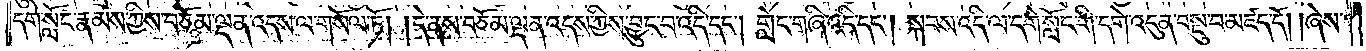དགེ་སློང་རྣམས་ཀྱིས་བཅོམ་ལྡན་འདས་ལ་གསོལ་ཏོ། །དེ་ནས་བཅོམ་ལྡན་འདས་ཀྱིས་བྱུང་བ་འདི་དང༌། གླེང་གཞི་འདི་དང༌། སྐབས་འདི་ལ་དགེ་སློང་གི་དགེ་འདུན་བསྡུ་བ་མཛད་དོ། །ཞེས་
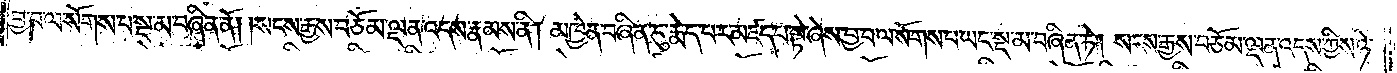བྱ་བ་ལ་སོགས་པ་སྔ་མ་བཞིན་ནོ། །སངས་རྒྱས་བཅོམ་ལྡན་འདས་རྣམས་ནི། མཁྱེན་བཞིན་དུ་རྨེད་པར་མཛད་པ་སྟེ་ཞེས་བྱ་བ་ལ་སོགས་པ་ཡང་སྔ་མ་བཞིན་ཏེ། སངས་རྒྱས་བཅོམ་ལྡན་འདས་ཀྱིས་ཉེ་
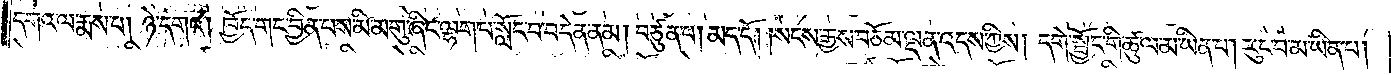དགའ་ལ་རྨས་པ། ཉེ་དགའ། ཁྱོད་གང་བྱིན་པས་མི་མགུ་ཞིང་ལྷག་པ་སློང་བ་བདེན་ནམ། བཙུན་པ། མད་དོ། །སངས་རྒྱས་བཅོམ་ལྡན་འདས་ཀྱིས། དགེ་སྦྱོང་གི་ཚུལ་མ་ཡིན་པ། རུང་བ་མ་ཡིན་པ།
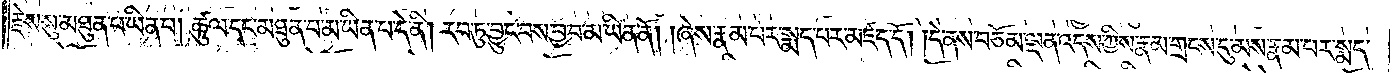རྗེས་སུ་མཐུན་པ་ཡིན་པ། ཚུལ་དང་མཐུན་པ་མ་ཡིན་པ་དེ་ནི། རབ་ཏུ་བྱུང་བས་བྱ་བ་མ་ཡིན་ནོ། །ཞེས་རྣམ་པར་སྨད་པར་མཛད་དོ། །དེ་ནས་བཅོམ་ལྡན་འདས་ཀྱིས་རྣམ་གྲངས་དུ་མས་རྣམ་པར་སྨད་
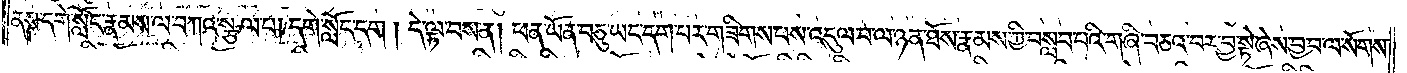ནས་དགེ་སློང་རྣམས་ལ་བཀའ་སྩལ་པ། དགེ་སློང་དག ། དེ་ལྟ་བས་ན། ཕན་ཡོན་བཅུ་ཡང་དག་པར་གཟིགས་པས་འདུལ་བ་ལ་ཉན་ཐོས་རྣམས་ཀྱི་བསླབ་པའི་གཞི་བཅའ་བར་བྱ་སྟེ་ཞེས་བྱ་བ་ལ་སོགས་
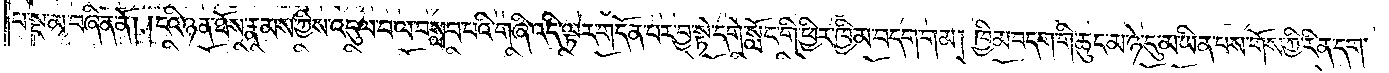པ་སྔ་མ་བཞིན་ནོ། །ངའི་ཉན་ཐོས་རྣམས་ཀྱིས་འདུལ་བ་ལ་བསླབ་པའི་གཞི་འདི་ལྟར་གདོན་པར་བྱ་སྟེ་དགེ་སློང་གི་ཕྱིར་ཁྱིམ་བདག་གམ། ཁྱིམ་བདག་གི་ཆུང་མ་ཉེ་དུ་མ་ཡིན་པས་གོས་ཀྱི་རིན་དག་
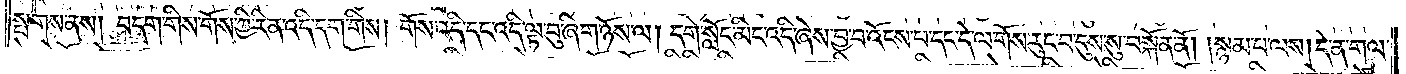སྤགས་ནས། བདག་གིས་གོས་ཀྱི་རིན་འདི་དག་གིས། གོས་འདི་དང་འདི་ལྟ་བུ་ཞིག་ཉོས་ལ། དགེ་སློང་མིང་འདི་ཞེས་བྱ་བ་འོངས་པ་དང་དེ་ལ་གོས་རུང་བ་དུས་སུ་བསྐོན་ནོ། །སྙམ་པ་ལས། དེ་ན་གལ་
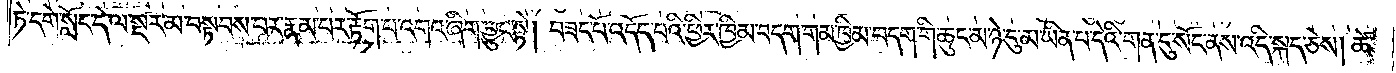ཏེ་དགེ་སློང་དེ་ལ་སྔར་མ་བསྟབས་བར་རྣམ་པར་རྟོག་པ་འགའ་ཞིག་བྱུང་སྟེ། བཟང་པོ་འདོད་པའི་ཕྱིར་ཁྱིམ་བདག་གམ་ཁྱིམ་བདག་གི་ཆུང་མ་ཉེ་དུ་མ་ཡིན་པ་དེའི་གན་དུ་སོང་ནས་འདི་སྐད་ཅེས། ཚེ་
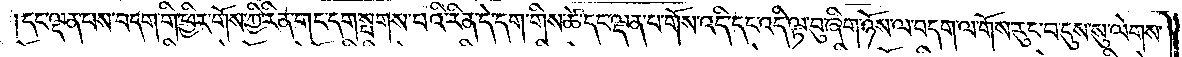དང་ལྡན་པས་བདག་གི་ཕྱིར་གོས་ཀྱི་རིན་གང་དག་སྤགས་པའི་རིན་དེ་དག་གིས་ཚེ་དང་ལྡན་པ་གོས་འདི་དང་འདི་ལྟ་བུ་ཞིག་ཉོས་ལ་བདག་ལ་གོས་རུང་བ་དུས་སུ་ལེགས་
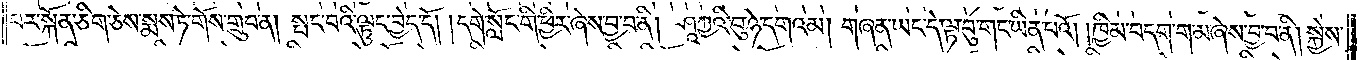པར་སྐོན་ཅིག་ཅེས་སྨས་ཏེ་གོས་གྲུབ་ན། སྤང་བའི་ལྟུང་བྱེད་དོ། །དགེ་སློང་གི་ཕྱིར་ཞེས་བྱ་བ་ནི། ཤཱཀྱའི་བུ་ཉེ་དགའམ། གཞན་ཡང་དེ་ལྟ་བུ་གང་ཡིན་པའོ། །ཁྱིམ་བདག་ག་མ་ཞེས་བྱ་བ་ནི། སྐྱེས་
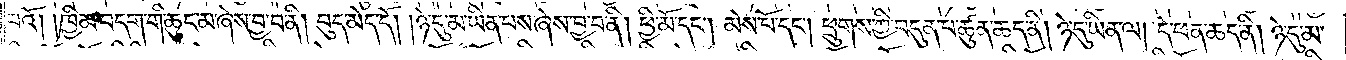པའོ། །ཁྱིམ་བདག་གི་ཆུང་མ་ཞེས་བྱ་བ་ནི། བུད་མེད་དོ། །ཉེ་དུ་མ་ཡིན་པས་ཞེས་བྱ་བ་ནི། ཕྱི་མོ་དང༌། མེས་པོ་དང༌། ཕྲུགས་ཀྱི་བདུན་པ་ཚུན་ཆད་ནི། ཉེ་དུ་ཡིན་ལ། དེ་ཕན་ཆད་ནི། ཉེ་དུ་མ་
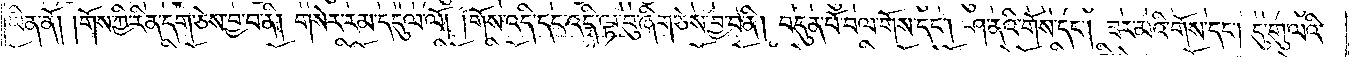ཡིན་ནོ། །གོས་ཀྱི་རིན་དག་ཅེས་བྱ་བ་ནི། གསེར་རམ་དངུལ་ལོ། །གོས་འདི་དང་འདི་ལྟ་བུ་ཞིག་ཅེས་བྱ་བ་ནི། བདུན་པོ་བལ་གོས་དང༌། ཤ་ནའི་གོས་དང༌། ཟར་མའི་གོས་དང༌། དུ་གུ་ལའི་
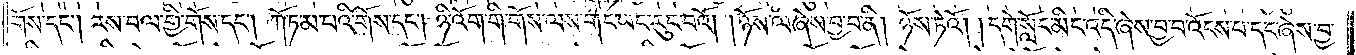གོས་དང༌། རས་བལ་གྱི་གོས་དང༌། ཀོ་ཏམ་པའི་གོས་དང༌། ཉི་འོག་གི་གོས་ལས་གང་ཡང་རུང་བའོ། །ཉོས་ལ་ཞེས་བྱ་བ་ནི། ཉོས་ཏེའོ། །དགེ་སློང་མིང་འདི་ཞེས་བྱ་བ་འོངས་པ་དང་ཞེས་བྱ་
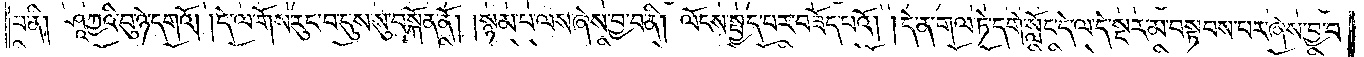བ་ནི། ཤཱཀྱའི་བུ་ཉེ་དགའོ། །དེ་ལ་གོས་རུང་བ་དུས་སུ་བསྐོན་ནོ། །སྙམ་པ་ལས་ཞེས་བྱ་བ་ནི། ལོངས་སྤྱད་པར་བཟོད་པའོ། །དེ་ན་གལ་ཏེ་དགེ་སློང་དེ་ལ་དེ་སྔར་མ་བསྟབས་པར་ཞེས་བྱ་བ་
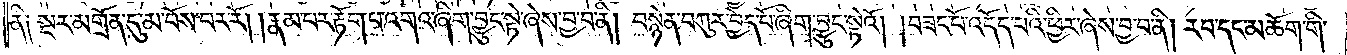ནི། སྔར་མགྲོན་དུ་མ་བོས་པར་རོ། །རྣམ་པར་རྟོག་པ་འགའ་ཞིག་བྱུང་སྟེ་ཞེས་བྱ་བ་ནི། བསྙེན་བཀུར་བྱེད་པོ་ཞིག་བྱུང་སྟེའོ། །བཟང་པོ་འདོད་པའི་ཕྱིར་ཞེས་བྱ་བ་ནི། རབ་དང་མཆོག་གི་
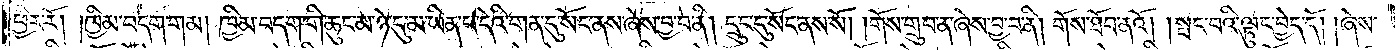ཕྱིར་རོ། །ཁྱིམ་བདག་གམ། ཁྱིམ་བདག་གི་ཆུང་མ་ཉེ་དུ་མ་ཡིན་པ་དེའི་གན་དུ་སོང་ནས་ཞེས་བྱ་བ་ནི། དྲུང་དུ་སོང་ནས་སོ། །གོས་གྲུབ་ན་ཞེས་བྱ་བ་ནི། གོས་ཐོབ་ནའོ། །སྤང་བའི་ལྟུང་བྱེད་དོ། །ཞེས་
